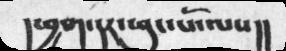།  ཕྱག་དར་ཕུང་པོ་ལས།།
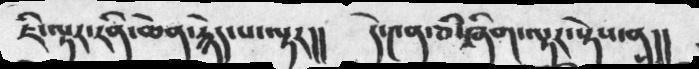ཇི་ལྟར་རིན་ཆེན་རྙེད་པ་ལྟར།། དེ་༤ན་ཅི་ཞིག་ལྟར་སྟེས་ན།།
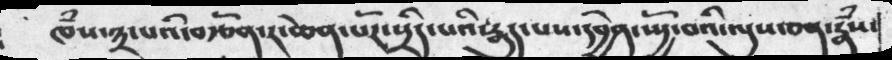ཁཾས་༣་པའི་བརྩོན་ར་ཆེན་པོར་སྲིད་པའི་རྒུད་པས་དབྱེན་སྤྱོ་བའི་ལུས་ཅན་རྣཾས་
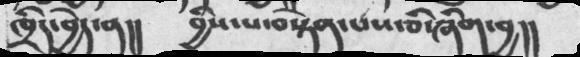ཁྲིད་བྱེདན།།  བྱིས་པ་བསྟེན་པས་ཅི་ཞིག་བྱ།།
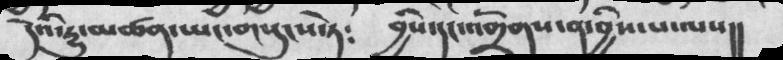དེའི་རྱུ་མཚན་ཡང་གསུངས་ཏེ༴   བྱིས་དང་འགྲོགས་ན་བྱིས་པ་ལས།།
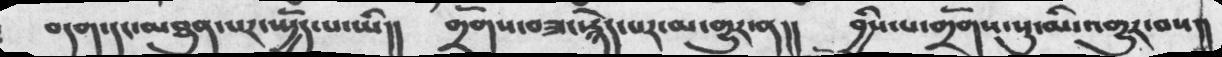བདག་དང་མཐུན་པར་སྤྱོད་པ་ཡི།།  གྲོགས་བཟང་རྙེད་པར་མ་གྱུར་ན།།  བྱིས་པ་གྲོགས་སུ་མི་འགྱུར་བས།།
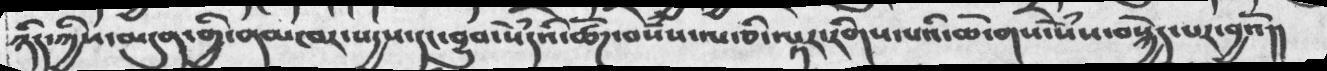ཉིད་ཀྱིས་མདུན་གྱི་ནམཁར་སདྱས་དང་བྱུབ་སེཾདའི་ཚོཌ་བསཾས་པ་ཅི་ལྟར་རིགས་པའི་ཆོ་གས་སེཾས་བསྐྱེད་པར་བྱའོ།།
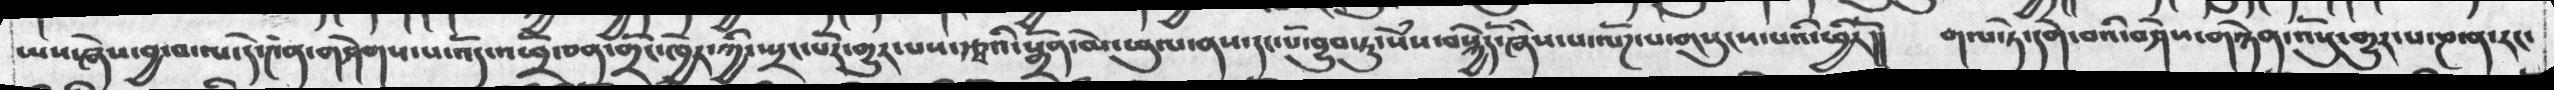ཡས་ཞེས་བྱ་བ་ལ་དེ་༤ན་གཤེགས་པ་འོད་འཕྲི་ཅན་གྲོང་ཁྱེར་ཀྱི་སྤྲང་པོར་གྱུར་པས་རྩྭའི་སྒྲོན་མེ་ཕུལ་ནས་དང་པོ་བྱུབ་ཏུ་སེཾས་བསྐྱེད་ཞེས་པ་ལོཌ་པ་གསུངས་པའི་ཕྱིརོ།།  གལ་ཏེ་དགེ་བའི་བཤེས་གཉེན་འསོུ་གྱུར་པ་ཎ་ན་རང་
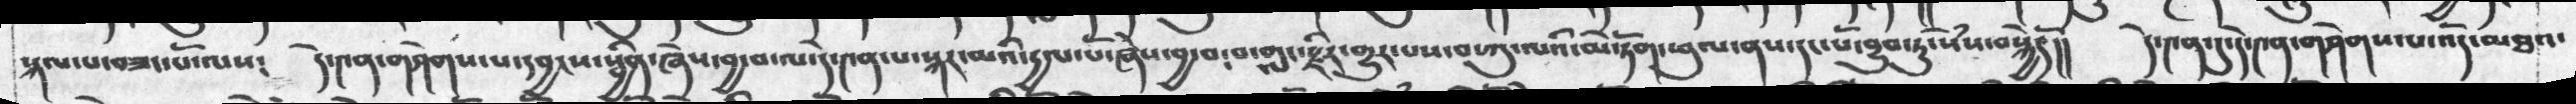སྐལ་པ་བཟང་པོ་ལས༴  དེ་༤ན་གཤེགས་པ་དབྱངས་སྦྱིན་ཞེས་བྱ་བ་ལ་དེ་༤ན་པ་སྐར་མའི་དྱལ་པོ་ཞེས་བྱ་བ་བདག་གླང་རྫིར་གྱུར་པས་བ་ཀུ་ལའི་མེ་ཏོག་ཕུལ་ནས་དང་པོ་བྱུབ་ཏུ་སེཾས་བསྐྱེདོ།།  དེ་༤ན་དུ་དེ་༤ན་གཤེགས་པ་འོད་མཐའ་
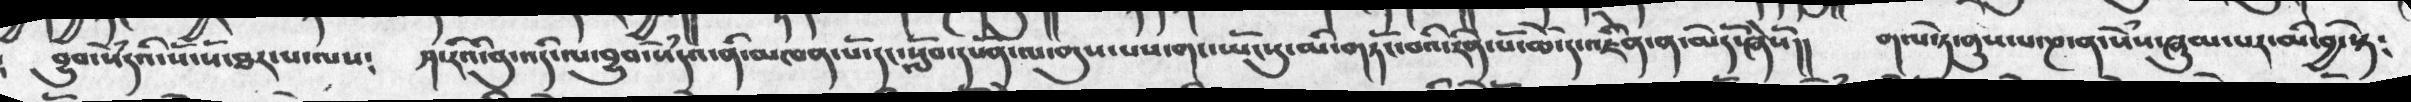བྱུབ་སེཾདའི་སོ་སོ་ཐར་པ་ལས༴  ཤ་རིའི་བུ་འདི་ལ་བྱུབ་སེཾདའ་ནི་མཁན་པོ་དང་སློག་དཔོན་ལ་གུས་པས་གང་ཡོངསུ་མི་གཏོང་བའི་རིན་ཆེ་དེ་འཇིེན་ན་མེདོ་ཞེསོ།།  གལ་ཏེ་ནུས་པ་ཎ་ན་སེཾས་ཞུམ་པར་མི་བྱ་སྟེ༴
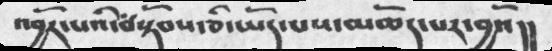འབྱོར་པའི་བསྟོབས་ཅི་ཡོད་པས་མཆོད་པར་བྱའོ།།
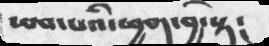ཕབ་པའི་ཕྱག་བྱ་སྟེ།
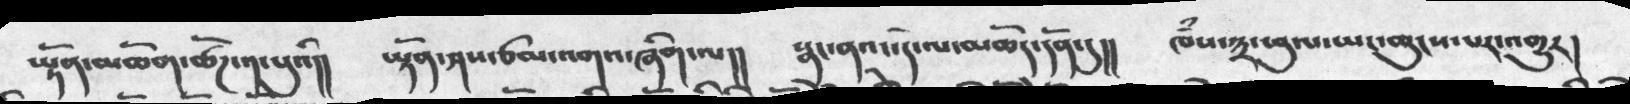ཡྟོན་མཆོག་ཚོཌ་༡་པུའི།།   ཡྟོན་ཤས་ཙམ་འགའ་ཞིག་ལ།།  སྣང་ནའང་དེ་ལ་མཆོད་དོན་དུ།།  ཁཾས་༣་ཕུལ་ཡང་ཆུངས་པར་འགྱུར།
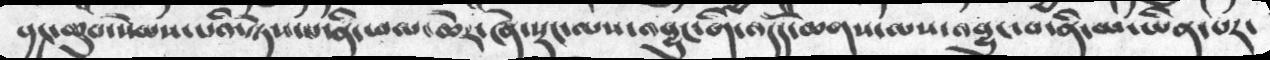བྱང་ཆུབ་སེམས་པའི་སྟེས་པ་ནི་ཕལ་ཆེར་ཞེ་སྡང་ལས་འབྱུང་གི་འདོད་ཆགས་ལས་འབྱུང་བ་ནི་མ་ཡིན་པར་
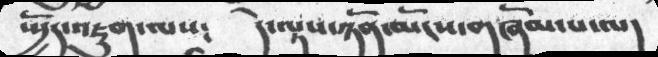སྤྱོད་འཇུག་ལས༴  དེ་ལྟས་ཉོན་མོངས་གཞོམ་པ་ལ།
